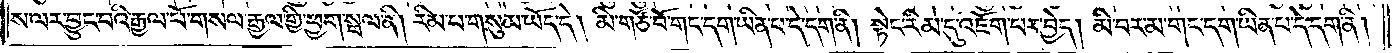ས་ལར་བྱུང་བའི་རྒྱལ་པོ་གསལ་རྒྱལ་གྱི་ཕྱག་སྦལ་ནི། རིམ་པ་གསུམ་ཡོད་དེ། མི་གཙོ་བོ་གང་དག་ཡིན་པ་དེ་དག་ནི། སྟེང་རིམ་དུ་འཇོག་པར་བྱེད། མི་བར་མ་གང་དག་ཡིན་པ་དེ་དག་ནི།
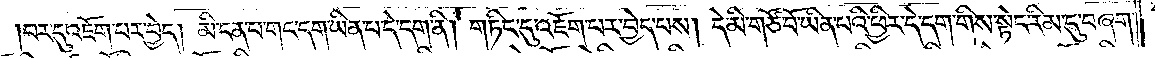བར་དུ་འཇོག་པར་བྱེད། མི་ངན་པ་གང་དག་ཡིན་པ་དེ་དག་ནི། གཏིང་དུ་འཇོག་པར་བྱེད་པས། དེ་མི་གཙོ་བོ་ཡིན་པའི་ཕྱིར་དེ་དག་གིས་སྟེང་རིམ་དུ་བཞག་
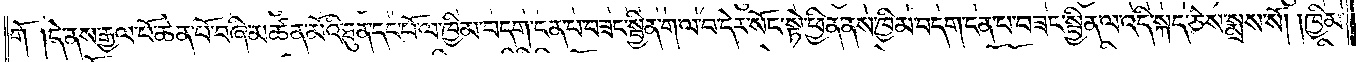གོ །དེ་ནས་རྒྱལ་པོ་ཆེན་པོ་བཞི་མཚན་མོའི་ཐུན་དང་པོ་ལ་ཁྱིམ་བདག་ངན་པ་བཟང་སྦྱིན་ག་ལ་བ་དེར་སོང་སྟེ་ཕྱིན་ནས་ཁྱིམ་བདག་ངན་པ་བཟང་སྦྱིན་ལ་འདི་སྐད་ཅེས་སྨྲས་སོ། །ཁྱིམ་
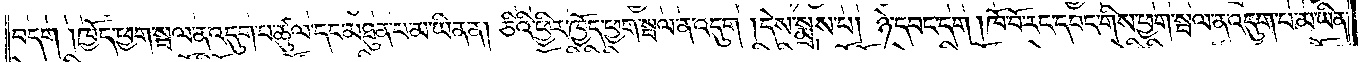བདག །ཁྱོད་ཕྱག་སྦལ་ན་འདུག་པ་ཚུལ་དང་མཐུན་པ་མ་ཡིན་ན། ཅིའི་ཕྱིར་ཁྱོད་ཕྱག་སྦལ་ན་འདུག །དེས་སྨྲས་པ། ཉེ་དབང་དག །ཁོ་བོ་རང་དབང་གིས་ཕྱག་སྦལ་ན་འདུག་པ་མ་ཡིན་
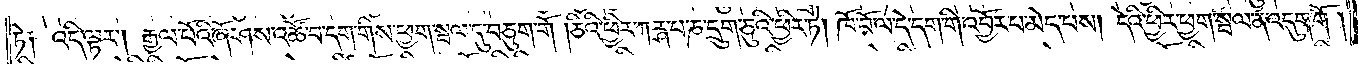ཏེ། འདི་ལྟར། རྒྱལ་པོའི་ཞོ་ཤས་འཚོ་བ་དག་གིས་ཕྱག་སྦལ་དུ་བཅུག་གོ །ཅིའི་ཕྱིར་ཀཪྴ་པ་ཎ་དྲུག་ཅུའི་ཕྱིར་ཏེ། ཁོ་བོ་ལ་དེ་དག་གི་འབྱོར་པ་མེད་པས། དེའི་ཕྱིར་ཕྱག་སྦལ་ན་འདུག་གོ །
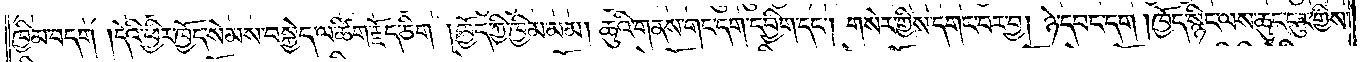ཁྱིམ་བདག །དེའི་ཕྱིར་ཁྱོད་སེམས་བསྐྱེད་ལ་ཚིག་རྗོད་ཅིག །ཁྱོད་ཀྱི་ཁྱིམ་མམ། ཆུའི་གནས་གང་དག་དབྱིག་དང༌། གསེར་གྱིས་དགང་བར་བྱ། ཉེ་དབང་དག །ཁྱོད་སྙིང་ལས་ཆུང་ངུར་གྱིས་
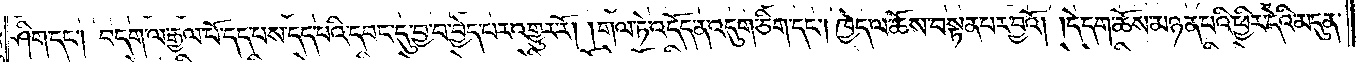ཤིག་དང༌། བདག་ལ་རྒྱལ་པོ་དད་པས་དད་པའི་དབང་དུ་བྱ་བ་བྱེད་པར་འགྱུར་རོ། །གལ་ཏེ་འདོད་ན་འདུག་ཅིག་དང༌། ཁྱེད་ལ་ཆོས་བསྟན་པར་བྱའོ། །དེ་དག་ཆོས་མཉན་པའི་ཕྱིར་དེའི་མདུན་
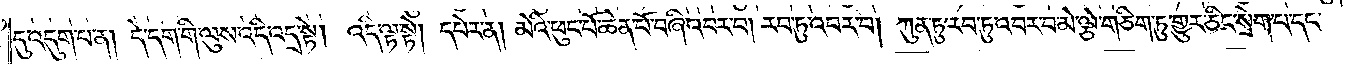དུ་འདུག་པ་ན། དེ་དག་གི་ལུས་འདི་འདྲ་སྟེ། འདི་ལྟ་སྟེ། དཔེར་ན། མེའི་ཕུང་པོ་ཆེན་པོ་བཞི་འབར་བ། རབ་ཏུ་འབར་བ། ཀུན་ཏུ་རབ་ཏུ་འབར་བ་མེ་ལྕེ་གཅིག་ཏུ་གྱུར་ཅིང་སྲེག་པ་དང་
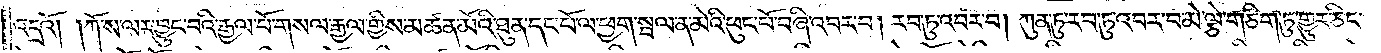འདྲའོ། །ཀོ་ས་ལར་བྱུང་བའི་རྒྱལ་པོ་གསལ་རྒྱལ་གྱིས་མཚན་མོའི་ཐུན་དང་པོ་ལ་ཕྱག་སྦལ་ན་མེའི་ཕུང་པོ་བཞི་འབར་བ། རབ་ཏུ་འབར་བ། ཀུན་ཏུ་རབ་ཏུ་འབར་བ་མེ་ལྕེ་གཅིག་ཏུ་གྱུར་ཅིང་
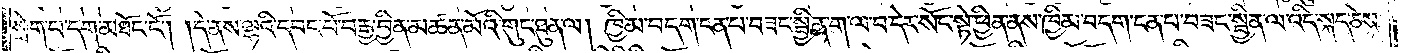སྲེག་པ་དག་མཐོང་ངོ༌། །དེ་ནས་ལྷའི་དབང་པོ་བརྒྱ་བྱིན་མཚན་མོའི་གུང་ཐུན་ལ། ཁྱིམ་བདག་ངན་པ་བཟང་སྦྱིན་ག་ལ་བ་དེར་སོང་སྟེ་ཕྱིན་ནས་ཁྱིམ་བདག་ངན་པ་བཟང་སྦྱིན་ལ་འདི་སྐད་ཅེས་
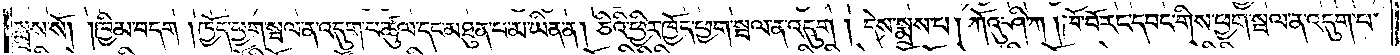སྨྲས་སོ། །ཁྱིམ་བདག །ཁྱོད་ཕྱག་སྦལ་ན་འདུག་པ་ཚུལ་དང་མཐུན་པ་མ་ཡིན་ན། ཅིའི་ཕྱིར་ཁྱོད་ཕྱག་སྦལ་ན་འདུག །དེས་སྨྲས་པ། ཀོའུ་ཤི་ཀ། ཁོ་བོ་རང་དབང་གིས་ཕྱག་སྦལ་ན་འདུག་པ་
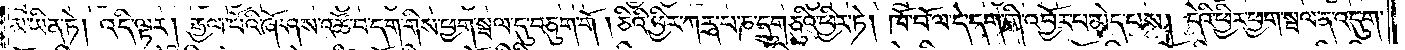མ་ཡིན་ཏེ། འདི་ལྟར། རྒྱལ་པོའི་ཞོ་ཤས་འཚོ་བ་དག་གིས་ཕྱག་སྦལ་དུ་བཅུག་གོ །ཅིའི་ཕྱིར་ཀཪྴ་པ་ཎ་དྲུག་ཅུའི་ཕྱིར་ཏེ། ཁོ་བོ་ལ་དེ་དག་གི་འབྱོར་པ་མེད་པས། དེའི་ཕྱིར་ཕྱག་སྦལ་ན་འདུག་
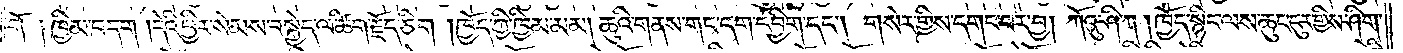གོ །ཁྱིམ་བདག །དེའི་ཕྱིར་སེམས་བསྐྱེད་ལ་ཚིག་རྗོད་ཅིག །ཁྱོད་ཀྱི་ཁྱིམ་མམ། ཆུའི་གནས་གང་དག་དབྱིག་དང༌། གསེར་གྱིས་དགང་བར་བྱ། ཀོའུ་ཤི་ཀ། ཁྱོད་སྙིང་ལས་ཆུང་ངུར་གྱིས་ཤིག་
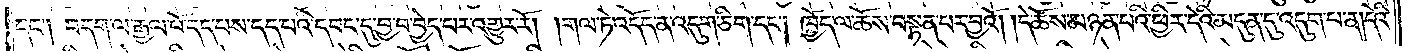དང༌། བདག་ལ་རྒྱལ་པོ་དད་པས་དད་པའི་དབང་དུ་བྱ་བ་བྱེད་པར་འགྱུར་རོ། །གལ་ཏེ་འདོད་ན་འདུག་ཅིག་དང༌། ཁྱོད་ལ་ཆོས་བསྟན་པར་བྱའོ། །དེ་ཆོས་མཉན་པའི་ཕྱིར་དེའི་མདུན་དུ་འདུག་པ་ན། དེའི་
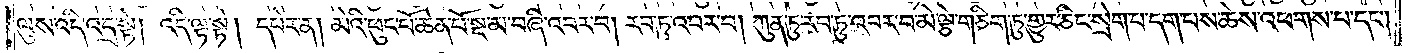ལུས་འདི་འདྲ་སྟེ། འདི་ལྟ་སྟེ། དཔེར་ན། མེའི་ཕུང་པོ་ཆེན་པོ་སྔ་མ་བཞི་འབར་བ། རབ་ཏུ་འབར་བ། ཀུན་ཏུ་རབ་ཏུ་འབར་བ་མེ་ལྕེ་གཅིག་ཏུ་གྱུར་ཅིང་སྲེག་པ་དག་པས་ཆེས་འཕགས་པ་དང༌།
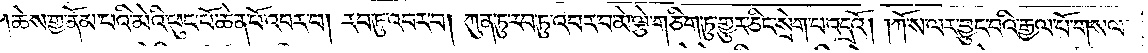ཆེས་གྱ་ནོམ་པའི་མེའི་ཕུང་པོ་ཆེན་པོ་འབར་བ། རབ་ཏུ་འབར་བ། ཀུན་ཏུ་རབ་ཏུ་འབར་བ་མེ་ལྕེ་གཅིག་ཏུ་གྱུར་ཅིང་སྲེག་པ་འདྲའོ། །ཀོ་ས་ལར་བྱུང་བའི་རྒྱལ་པོ་གསལ་
